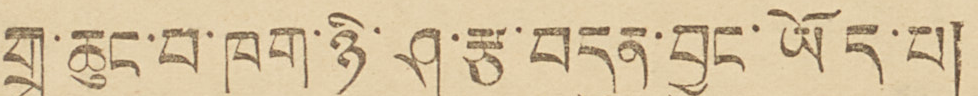གྲྭ་ཆུང་བ་ཁག་ཉི་ཤུ་བདུན་བྱུང་ཡོད་པ།
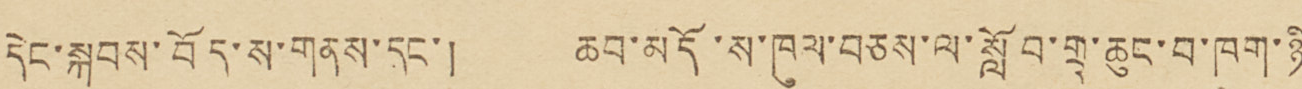དེང་སྐབས་བོད་ས་གནས་དང་། ཆབ་མདོ་ས་ཁུལ་བཅས་ལ་སློབ་གྲྭ་ཆུང་བ་ཁག་ཉི
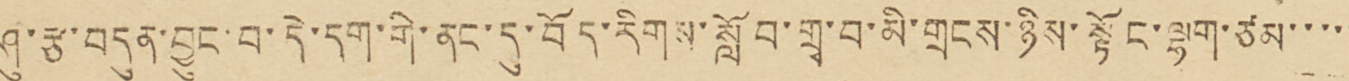ཤུ་རྩ་བདུན་བྱུང་བ་དེ་དག་གི་ནང་དུ་བོད་རིགས་སློབ་གྲྭ་བ་མི་གྲངས་ཉིས་སྟོང་ལྷག་ཙམ་་་་་་
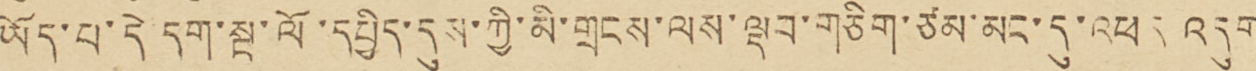ཡོད་པ་དེ་དག་སྔ་ལོ་དཔྱིད་དུས་ཀྱི་མི་གྲངས་ལས་ལྡབ་གཅིག་ཙམ་མང་དུ་འཕར འདུག
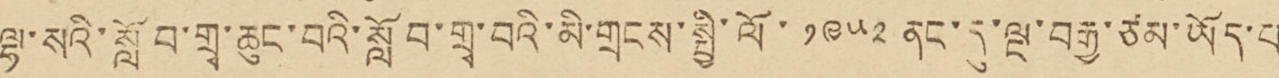ལྷ་སའི་སློབ་གྲྭ་ཆུང་བའི་སློབ་གྲྭ་བའི་མི་གྲངས་སྤྱི་ལོ་ ༡༩༥༢ ནང་དུ་ལྔ་བརྒྱ་ཙམ་ཡོད་པ་་
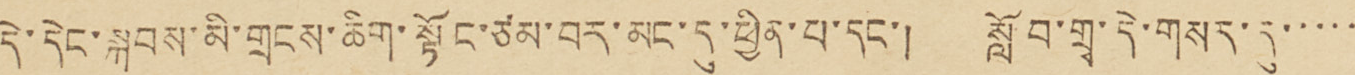དེ་དེང་སྐབས་མི་གྲངས་ཆིག་སྟོང་ཙམ་བར་མང་དུ་ཕྱིན་པ་དང་། སློབ་གྲྭ་དེ་གསར་དུ་་་་་་
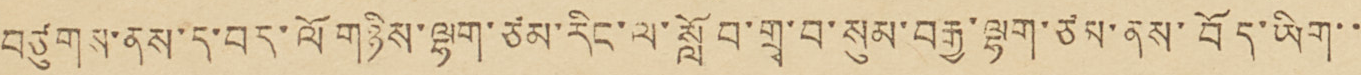བཙུགས་ནས་ད་བར་ལོ་གཉིས་ལྷག་ཙམ་རིང་ལ་སློབ་གྲྭ་བ་སུམ་བརྒྱ་ལྷག་ཙམ་ནས་བོད་ཡིག་་་
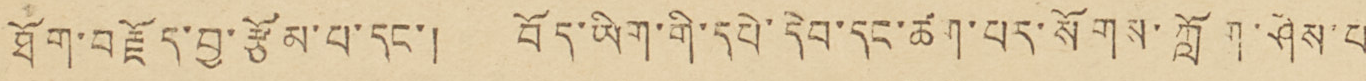ཐོག་བརྗོད་བྱ་རྩོམ་པ་དང་། བོད་ཡིག་གི་དཔེ་དེབ་དང་ཚག་པར་སོགས་ཀློག་ཤེས་པ་
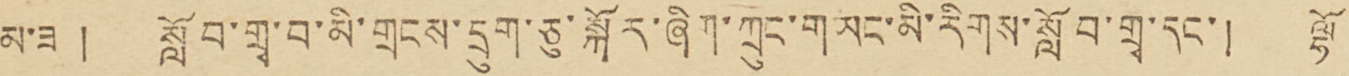མ་ཟ། སློབ་གྲྭ་བ་མི་གྲངས་དྲུག་ཅུ་སྐོར་ཞིག་ཀྲུང་གཡང་མི་རིགས་སློབ་གྲྭ་དང་། ལྷོ་་
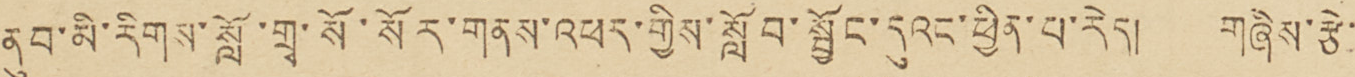ནུབ་མི་རིགས་སློབ་གྲྭ་སོ་སོར་གནས་འཕར་གྱིས་སློབ་སྦྱོང་དུའང་ཕྱིན་པ་རེད། གཞིས་རྩེ་་
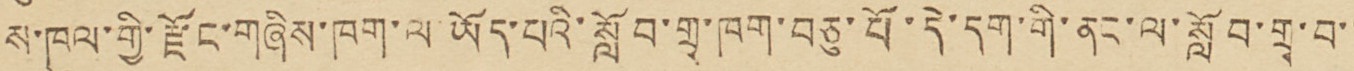ས་ཁུལ་གྱི་རྫོང་གཞིས་ཁག་ལ་ཡོད་པའི་སློབ་གྲྭ་ཁག་བཅུ་པོ་དེ་དག་གི་ནང་ལ་སློབ་གྲྭ་བ་་་
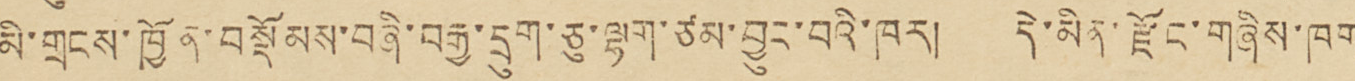མི་གྲངས་ཁྱོན་བསྡོམས་བཞི་བརྒྱ་དྲུག་ཅུ་ལྷག་ཙམ་བྱུང་བའི་ཁར། དེ་མིན་རྫོང་གཞིས་ཁག་
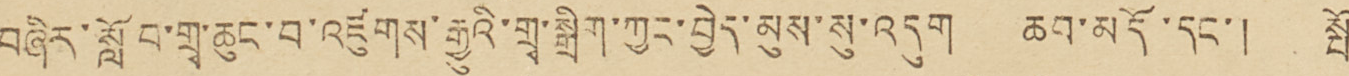བཞིར་སློབ་གྲྭ་ཆུང་བ་འཛུགས་རྒྱུའི་གྲྭ་སྒྲིག་ཀྱང་བྱེད་མུས་སུ་འདུག ཆབ་མདོ་དང་། སྤོ་
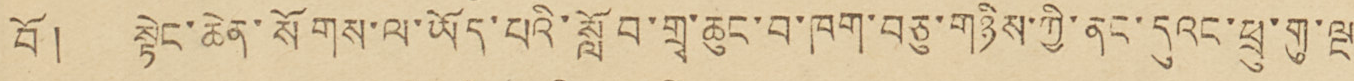བོ། སྟེང་ཆེན་སོགས་ལ་ཡོད་པའི་སློབ་གྲྭ་ཆུང་བ་ཁག་བཅུ་གཉིས་ཀྱི་ནང་དུའང་ཕྲུ་གུ་ལྔ་་
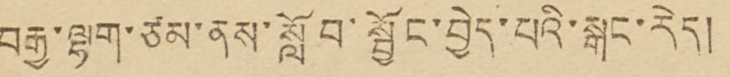བརྒྱ་ལྷག་ཙམ་ནས་སློབ་སྦྱོང་བྱེད་པའི་སྒང་རེད།
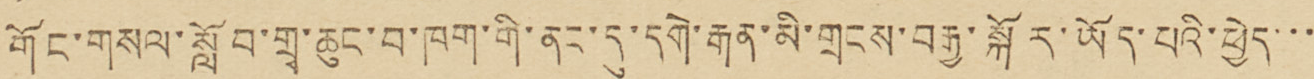གོང་གསལ་སློབ་གྲྭ་ཆུང་བ་ཁག་གི་ནང་དུ་དགེ་རྒན་མི་གྲངས་བརྒྱ་སྐོར་ཡོད་པའི་ཕྱེད་་་
